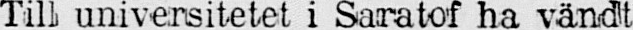Till universitetet i Saratof ha vändt
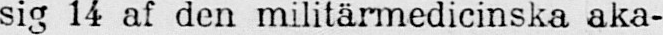sig 14 af den militärmedicinska aka-
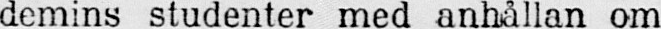demins studenter med anhållan om
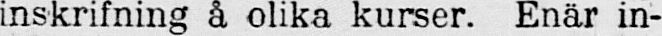inskrifning å olika kurser. Enär in-
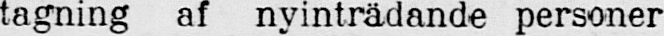tagning af nyinträdande personer
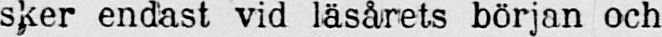sker endast vid läsårets början och
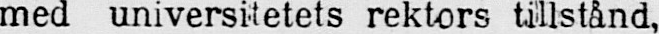med universitetets rektors tillstånd,
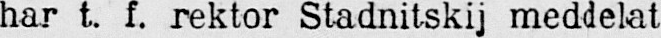har t. f. rektor Stadnitskij meddelat
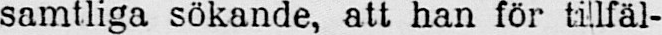samtliga sökande, att han för tillfäl-
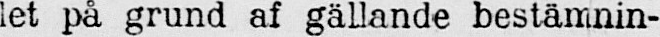let på grund af gällande bestämnin-
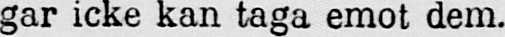gar icke kan taga emot dem.
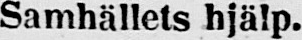Samhällets hjälp.
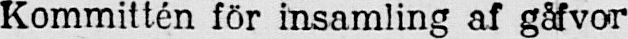Kommittén för insamling af gåfvor
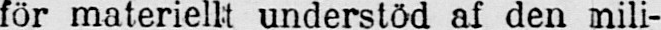för materiellt understöd af den mili-
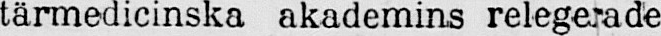tärmedicinska akademins relegerade
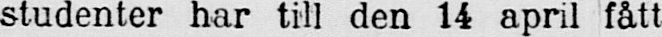studenter har till den 14 april fått
